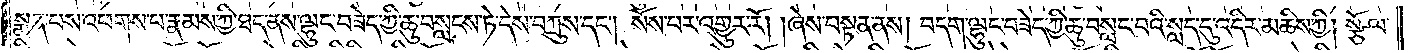སྨན་པས་འཕགས་པ་རྣམས་ཀྱི་ཐད་ནས་ལྷུང་བཟེད་ཀྱི་ཆུ་བསླངས་ཏེ་དེས་བཀྲུས་དང༌། སོས་པར་འགྱུར་རོ། །ཞེས་བསྟན་ནས། བདག་ལྷུང་བཟེད་ཀྱི་ཆུ་བསླང་བའི་སླད་དུ་འདིར་མཆིས་ཀྱི། སྩོལ་
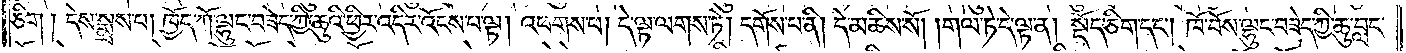ཅིག །དེས་སྨྲས་པ། ཁྱོད་ཀོ་ལྷུང་བཟེད་ཀྱི་ཆུའི་ཕྱིར་འདིར་འོངས་པ་ལྟ། འཕགས་པ། དེ་ལྟ་ལགས་ཏེ། དགོས་པ་ནི། དེ་མཆིས་སོ། །གལ་ཏེ་དེ་ལྟ་ན། སྡོད་ཅིག་དང༌། ཁོ་བོས་ལྷུང་བཟེད་ཀྱི་ཆུ་བླང་
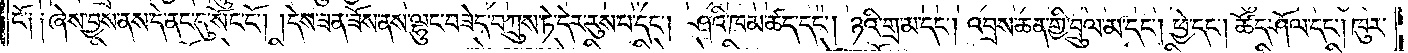ངོ༑ ༑ཞེས་བྱས་ནས་དེ་ནང་དུ་སོང་ངོ༌། །དེས་ཟན་ཟོས་ནས་ལྷུང་བཟེད་བཀྲུས་ཏེ་དེར་རུས་པ་དང༌། ཤའི་ཁམ་ཚད་དང༌། ཉའི་གྲ་མ་དང༌། འབྲས་ཆན་གྱི་བྲུལ་མ་དང༌། ཕྱེ་དང༌། ཚོད་ཤོལ་དང༌། ཁུར་
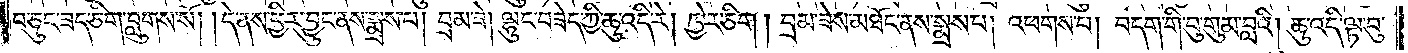བ་ཅུང་ཟད་ཅིག་བླུགས་སོ། །དེ་ནས་ཕྱིར་བྱུང་ནས་སྨྲས་པ། བྲམ་ཟེ། ལྷུང་བཟེད་ཀྱི་ཆུ་འདི་རེ། ཁྱེར་ཅིག །བྲམ་ཟེས་མཐོང་ནས་སྨྲས་པ། འཕགས་པ། བདག་གི་བུ་གུམ་བླའི། ཆུ་འདི་ལྟ་བུ་
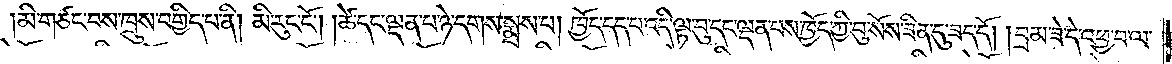མི་གཙང་བས་ཁྲུས་བགྱིད་པ་ནི། མི་རུང་ངོ༌། །ཚེ་དང་ལྡན་པ་ཉེ་དགས་སྨྲས་པ། ཁྱོད་དད་པ་འདི་ལྟ་བུ་དང་ལྡན་པས་ཁྱོད་ཀྱི་བུ་སོས་ཟིན་དུ་ཟད་དོ། །བྲམ་ཟེ་དེ་འཕྱ་བ་ལ་
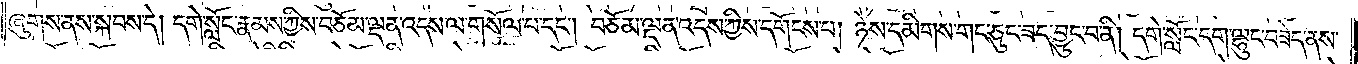ཞུགས་ནས་སྐབས་དེ། དགེ་སློང་རྣམས་ཀྱིས་བཅོམ་ལྡན་འདས་ལ་གསོལ་པ་དང༌། བཅོམ་ལྡན་འདས་ཀྱིས་དགོངས་པ། ཉེས་དམིགས་གང་ཅུང་ཟད་བྱུང་བ་ནི། དགེ་སློང་དག་ལྷུང་བཟེད་ནས་
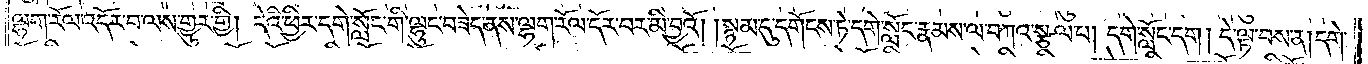ལྷག་རོལ་འདོར་བ་ལས་གྱུར་གྱི། དེའི་ཕྱིར་དགེ་སློང་གི་ལྷུང་བཟེད་ནས་ལྷག་རོལ་དོར་བར་མི་བྱའོ། །སྙམ་དུ་དགོངས་ཏེ་དགེ་སློང་རྣམས་ལ་བཀའ་སྩལ་པ། དགེ་སློང་དག །དེ་ལྟ་བས་ན། དགེ་
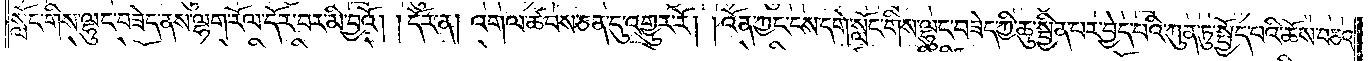སློང་གིས་ལྷུང་བཟེད་ནས་ལྷག་རོལ་དོར་བར་མི་བྱའོ། །དོར་ན། འགལ་ཚབས་ཅན་དུ་འགྱུར་རོ། །འོན་ཀྱང་ངས་དགེ་སློང་གིས་ལྷུང་བཟེད་ཀྱི་ཆུ་སྦྱིན་པར་བྱེད་པའི་ཀུན་ཏུ་སྤྱོད་པའི་ཆོས་བཅའ་
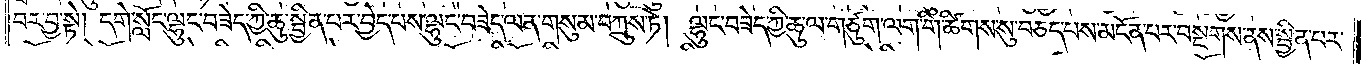བར་བྱ་སྟེ། དགེ་སློང་ལྷུང་བཟེད་ཀྱི་ཆུ་སྦྱིན་པར་བྱེད་པས་ལྷུང་བཟེད་ལན་གསུམ་བཀྲུས་ཏེ། ལྷུང་བཟེད་ཀྱི་ཆུ་ལ་གཙུག་ལག་གི་ཚིགས་སུ་བཅད་པས་མངོན་པར་བསྔགས་ནས་སྦྱིན་པར་
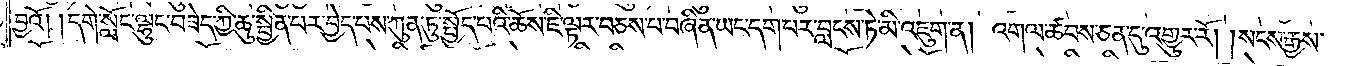བྱའོ། །དགེ་སློང་ལྷུང་བཟེད་ཀྱི་ཆུ་སྦྱིན་པར་བྱེད་པས་ཀུན་ཏུ་སྤྱོད་པའི་ཆོས་ཇི་ལྟར་བཅས་པ་བཞིན་ཡང་དག་པར་བླངས་ཏེ་མི་འཇུག་ན། འགལ་ཚབས་ཅན་དུ་འགྱུར་རོ། །སངས་རྒྱས་
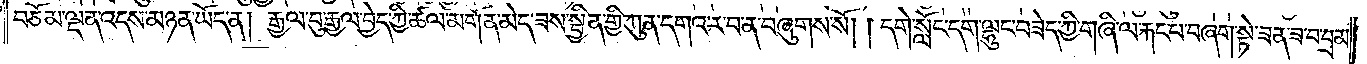བཅོམ་ལྡན་འདས་མཉན་ཡོད་ན། རྒྱལ་བུ་རྒྱལ་བྱེད་ཀྱི་ཚལ་མགོན་མེད་ཟས་སྦྱིན་གྱི་ཀུན་དགའ་ར་བ་ན་བཞུགས་སོ། །དགེ་སློང་དག་ལྷུང་བཟེད་ཀྱི་གཞི་ལ་རྐང་པ་བཞག་སྟེ་ཟན་ཟ་བ་བྲམ་
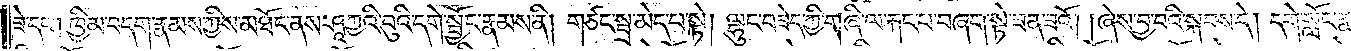ཟེ་དང༌། ཁྱིམ་བདག་རྣམས་ཀྱིས་མཐོང་ནས་ཤཱཀྱའི་བུའི་དགེ་སྦྱོང་རྣམས་ནི། གཙང་སྦྲ་མེད་པ་སྟེ། ལྷུང་བཟེད་ཀྱི་གཞི་ལ་རྐང་པ་བཞག་སྟེ་ཟན་ཟའོ། །ཞེས་བྱ་བའི་སྐབས་དེ། དགེ་སློང་རྣམས་
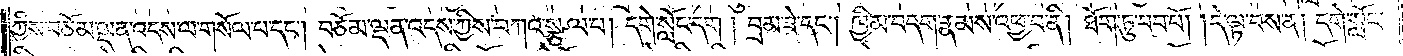ཀྱིས་བཅོམ་ལྡན་འདས་ལ་གསོལ་པ་དང༌། བཅོམ་ལྡན་འདས་ཀྱིས་བཀའ་སྩལ་པ། དགེ་སློང་དག །བྲམ་ཟེ་དང༌། ཁྱིམ་བདག་རྣམས་འཕྱ་བ་ནི། ཐོག་ཏུ་བབ་བོ། །དེ་ལྟ་བས་ན། དགེ་སློང་
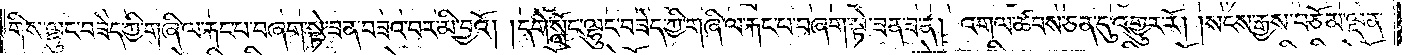གིས་ལྷུང་བཟེད་ཀྱི་གཞི་ལ་རྐང་པ་བཞག་སྟེ་ཟན་བཟའ་བར་མི་བྱའོ། །དགེ་སློང་ལྷུང་བཟེད་ཀྱི་གཞི་ལ་རྐང་པ་བཞག་སྟེ་ཟན་ཟ་ན། འགལ་ཚབས་ཅན་དུ་འགྱུར་རོ། །སངས་རྒྱས་བཅོམ་ལྡན་
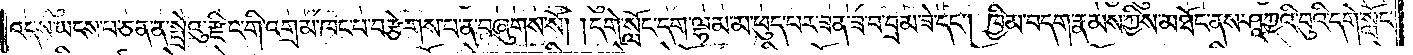འདས་ཡངས་པ་ཅན་ན་སྤྲེའུ་རྫིང་གི་འགྲམ་ཁང་པ་བརྩེགས་པ་ན་བཞུགས་སོ། །དགེ་སློང་དག་ལྷམ་མ་ཕུད་པར་ཟན་ཟ་བ་བྲམ་ཟེ་དང༌། ཁྱིམ་བདག་རྣམས་ཀྱིས་མཐོང་ནས་ཤཱཀྱའི་བུའི་དགེ་སློང་
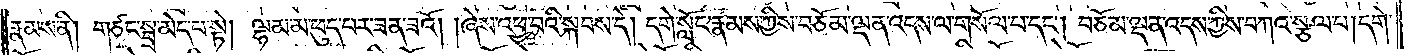རྣམས་ནི། གཙང་སྦྲ་མེད་པ་སྟེ། ལྷམ་མ་ཕུད་པར་ཟན་ཟའོ། །ཞེས་འཕྱ་བའི་སྐབས་དེ། དགེ་སློང་རྣམས་ཀྱིས་བཅོམ་ལྡན་འདས་ལ་གསོལ་པ་དང༌། བཅོམ་ལྡན་འདས་ཀྱིས་བཀའ་སྩལ་པ། དགེ་
